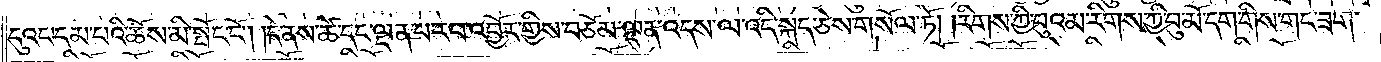དུའང་ངམ་པའི་ཆོས་མི་སྤོང་ངོ༌། །དེ་ནས་ཚེ་དང་ལྡན་པ་རབ་འབྱོར་གྱིས་བཅོམ་ལྡན་འདས་ལ་འདི་སྐད་ཅེས་གསོལ་ཏོ། །རིགས་ཀྱི་བུའམ་རིགས་ཀྱི་བུ་མོ་དག་གིས་གང་ཟག་
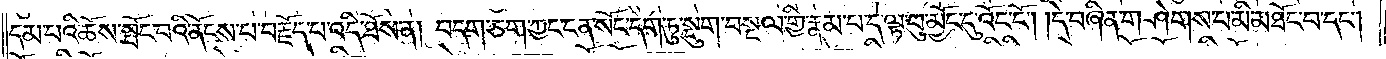དམ་པའི་ཆོས་སྤོང་བའི་ནོངས་པ་བརྗོད་པ་འདི་ཐོས་ནས། བདག་ཅག་ཀྱང་ངན་སོང་དག་ཏུ་སྡུག་བསྔལ་གྱི་རྣམ་པ་དེ་ལྟ་བུ་མྱོང་དུ་འོང་ངོ༌། །དེ་བཞིན་གཤེགས་པ་མི་མཐོང་བ་དང༌།
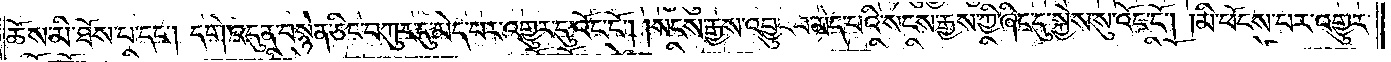ཆོས་མི་ཐོས་པ་དང༌། དགེ་འདུན་བསྙེན་ཅིང་བཀུར་དུ་མེད་པར་འགྱུར་དུ་འོང་ངོ༌། །སངས་རྒྱས་འབྱུང་བ་མེད་པའི་སངས་རྒྱས་ཀྱི་ཞིང་དུ་སྐྱེས་སུ་འོང་ངོ༌། །མི་ཕོངས་པར་འགྱུར་
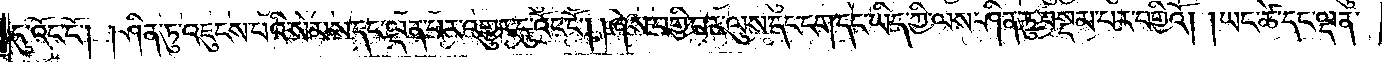དུ་འོང་ངོ༌། །ཤིན་ཏུ་འཇུངས་པའི་སེམས་དང་ལྡན་པར་འགྱུར་དུ་འོང་ངོ༌། །ཞེས་བགྱི་བར་ལུས་དང་ངག་དང་ཡིད་ཀྱི་ལས་ཤིན་ཏུ་བསྡམ་པར་བགྱིའོ། །ཡང་ཚེ་དང་ལྡན་
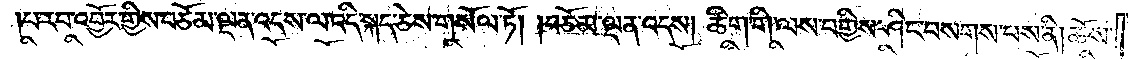པ་རབ་འབྱོར་གྱིས་བཅོམ་ལྡན་འདས་ལ་འདི་སྐད་ཅེས་གསོལ་ཏོ། །བཅོམ་ལྡན་འདས། ཚིག་གི་ལས་བགྱིས་ཤིང་བསགས་པས་ནི། ཆོས་
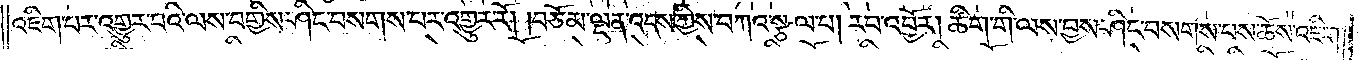འཇིག་པར་འགྱུར་བའི་ལས་བགྱིས་ཤིང་བསགས་པར་འགྱུར་རོ། །བཅོམ་ལྡན་འདས་ཀྱིས་བཀའ་སྩལ་པ། རབ་འབྱོར། ཚིག་གི་ལས་བྱས་ཤིང་བསགས་པས་ཆོས་འཇིག་
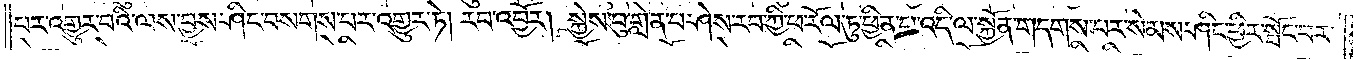པར་འགྱུར་བའི་ལས་བྱས་ཤིང་བསགས་པར་འགྱུར་ཏེ། རབ་འབྱོར། སྐྱེས་བུ་གླེན་པ་ཤེས་རབ་ཀྱི་ཕ་རོལ་ཏུ་ཕྱིན་པ་འདི་ལ་སྐྱོན་གདགས་པར་སེམས་ཤིང་ཕྱིར་སྤོང་བར་
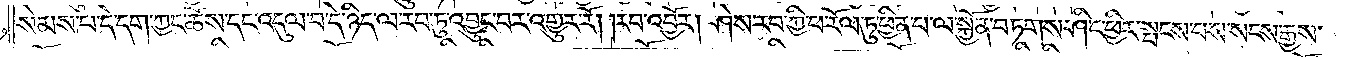སེམས་པ་དེ་དག་ཀྱང་ཆོས་དང་འདུལ་བ་དེ་ཉིད་ལ་རབ་ཏུ་འབྱུང་བར་འགྱུར་རོ། །རབ་འབྱོར། ཤེས་རབ་ཀྱི་ཕ་རོལ་ཏུ་ཕྱིན་པ་ལ་སྐྱོན་བཏགས་ཤིང་ཕྱིར་སྤངས་པས་སངས་རྒྱས་
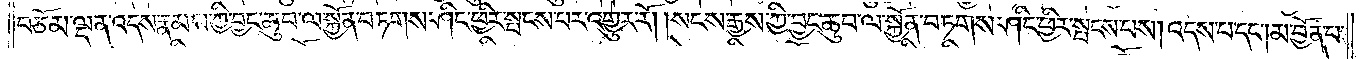བཅོམ་ལྡན་འདས་རྣམས་ཀྱི་བྱང་ཆུབ་ལ་སྐྱོན་བཏགས་ཤིང་ཕྱིར་སྤངས་པར་འགྱུར་རོ། །སངས་རྒྱས་ཀྱི་བྱང་ཆུབ་ལ་སྐྱོན་བཏགས་ཤིང་ཕྱིར་སྤངས་པས། འདས་པ་དང༌། མ་བྱོན་པ་
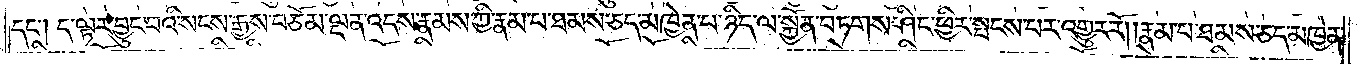དང༌། ད་ལྟར་བྱུང་བའི་སངས་རྒྱས་བཅོམ་ལྡན་འདས་རྣམས་ཀྱི་རྣམ་པ་ཐམས་ཅད་མཁྱེན་པ་ཉིད་ལ་སྐྱོན་བཏགས་ཤིང་ཕྱིར་སྤངས་པར་འགྱུར་རོ། །རྣམ་པ་ཐམས་ཅད་མཁྱེན་
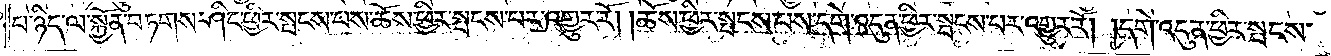པ་ཉིད་ལ་སྐྱོན་བཏགས་ཤིང་ཕྱིར་སྤངས་པས་ཆོས་ཕྱིར་སྤངས་པར་འགྱུར་རོ། །ཆོས་ཕྱིར་སྤངས་པས་དགེ་འདུན་ཕྱིར་སྤངས་པར་འགྱུར་རོ། དགེ་འདུན་ཕྱིར་སྤངས་
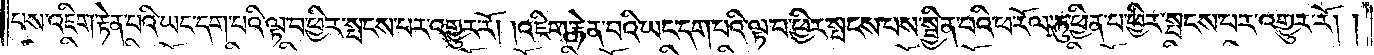པས་འཇིག་རྟེན་པའི་ཡང་དག་པའི་ལྟ་བ་ཕྱིར་སྤངས་པར་འགྱུར་རོ། །འཇིག་རྟེན་པའི་ཡང་དག་པའི་ལྟ་བ་ཕྱིར་སྤངས་པས་སྦྱིན་པའི་ཕ་རོལ་ཏུ་ཕྱིན་པ་ཕྱིར་སྤངས་པར་འགྱུར་རོ༎
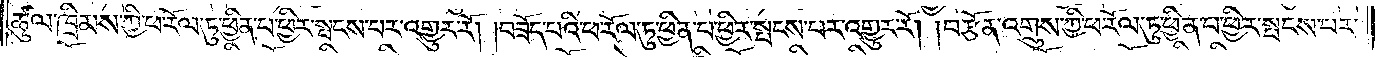ཚུལ་ཁྲིམས་ཀྱི་ཕ་རོལ་ཏུ་ཕྱིན་པ་ཕྱིར་སྤངས་པར་འགྱུར་རོ། །བཟོད་པའི་ཕ་རོལ་ཏུ་ཕྱིན་པ་ཕྱིར་སྤངས་པར་འགྱུར་རོ། །བརྩོན་འགྲུས་ཀྱི་ཕ་རོལ་ཏུ་ཕྱིན་པ་ཕྱིར་སྤངས་པར་
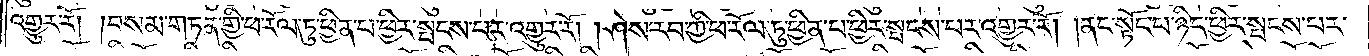འགྱུར་རོ། །བསམ་གཏན་གྱི་ཕ་རོལ་ཏུ་ཕྱིན་པ་ཕྱིར་སྤངས་པར་འགྱུར་རོ། །ཤེས་རབ་ཀྱི་ཕ་རོལ་ཏུ་ཕྱིན་པ་ཕྱིར་སྤངས་པར་འགྱུར་རོ། །ནང་སྟོང་པ་ཉིད་ཕྱིར་སྤངས་པར་
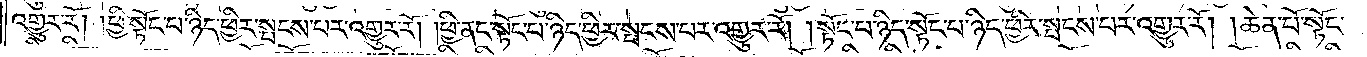འགྱུར་རོ། །ཕྱི་སྟོང་པ་ཉིད་ཕྱིར་སྤངས་པར་འགྱུར་རོ། །ཕྱི་ནང་སྟོང་པ་ཉིད་ཕྱིར་སྤངས་པར་འགྱུར་རོ། །སྟོང་པ་ཉིད་སྟོང་པ་ཉིད་ཕྱིར་སྤངས་པར་འགྱུར་རོ། །ཆེན་པོ་སྟོང་
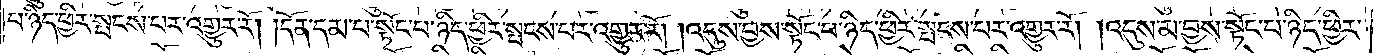པ་ཉིད་ཕྱིར་སྤངས་པར་འགྱུར་རོ། །དོན་དམ་པ་སྟོང་པ་ཉིད་ཕྱིར་སྤངས་པར་འགྱུར་རོ། །འདུས་བྱས་སྟོང་པ་ཉིད་ཕྱིར་སྤངས་པར་འགྱུར་རོ། །འདུས་མ་བྱས་སྟོང་པ་ཉིད་ཕྱིར་
